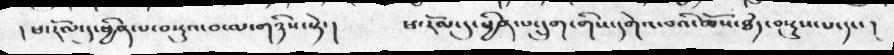། ཕ་རོལ་དུ་ཕྱིན་པ་བསྡུའ་བ་ལ་གཉིས་སྟེ་།  ཕ་རོལ་དུ་ཕྱིན་པ་དྲུག་གི་དགེའ་བའི་ཆོས་ཐཾད་བསྡུས་པ་དང་།
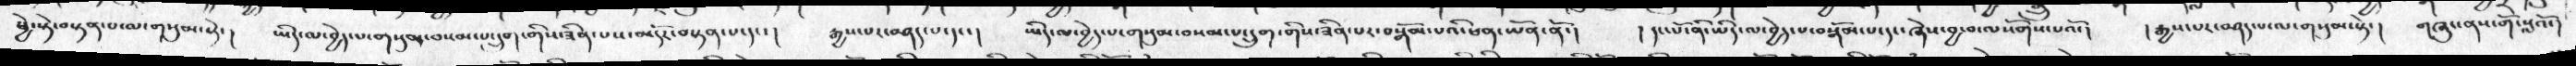ཕྱེ་སྟེ་བསྟན་པ་ལ་གསུམ་སྟེ་།  ཡིད་མ་བྱེད་པ་གསུམ་བསམ་པ་དྲུག་གིས་ཟིན་པས་མདོར་བསྟན་པ་དང་།  རྒྱས་པར་བཤད་པ་དང་།  ཡིད་ལ་བྱེད་པ་གསུམ་བསམ་པ་དྲུག་གིས་ཟིན་པར་བསྒོམ་པའི་ཕན་ཡོན་ནོ་།  ། དང་པོ་ནི་ཡིད་ལ་བྱེད་པ་བསྒོམ་པ་དང་ཞེས་བྱ་བ་ལསོགས་པའོ་།   ། རྒྱས་པར་བཤད་པ་ལ་གསུམ་སྟེ་།  གཞུང་ནས་གོ་སླའོ་།
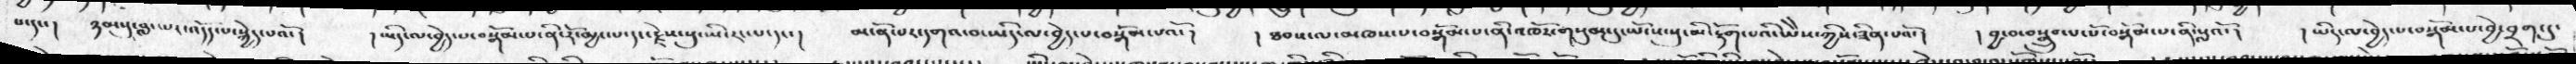པ་དང་།  ཉམ་དུ་བླང་པར་འདོད་པ་སྐྱེད་པའོ་།   ། ཡིད་ལ་བྱེད་པ་བསྒོམ་པ་ནི་རོ་མྱང་པ་དང་རྗེས་སུ་ཡི་རང་པ་དང་།  མངོན་པར་དགའ་བ་ཡིད་ལ་བྱེད་པ་བསྒོམ་པའོ་།  ། ཐབས་ལ་མཁས་པ་བསྒོམ་པ་ནི་འཁོར་གསུམ་དུ་ཡོངས་སུ་མི་རྟོག་པའི་ཡེེས་ཀྱིས་ཟིན་པའོ་།   ། བྱ་བ་བསྒྲུབ་པ་པོ་བསྒོམ་པ་ནི་སླའོ་།   ། ཡིད་ལ་བྱེད་པ་བསྒོམ་པ་བྱེ་བྲག་དུ་
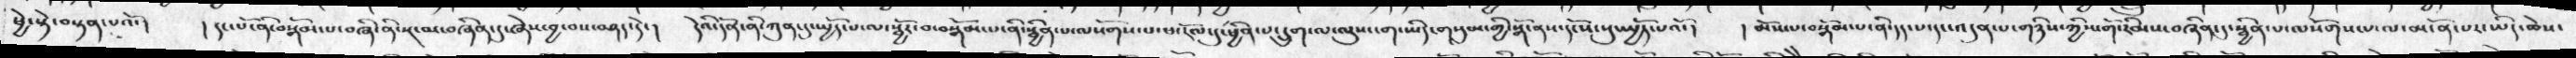ཕྱེ་སྟེ་བསྟན་པའོ་།   ། དང་པོ་ནི་བསྒོམ་པ་བཞི་ནི་སྔ་མ་བཞིན་དུ་ཞེས་བྱ་བས་བཤད་དེ་།   དེའི་དོན་ནི་ཀུན་དུ་སྤྱོད་པ་ལ་སྦྱོར་བ་བསྒོམ་པ་ནི་སྦྱིན་པ་ལསོགས་པ་ཕ་རོལ་དུ་ཕྱིན་པ་དྲུག་ལ་ལུས་ངག་ཡིད་གསུམ་གྱི་སྒོ་ནས་དངོས་སུ་སྤྱོད་པའོ་།  ། མོས་པ་བསྒོམ་པ་ནི་དད་པ་དང་འདུན་པ་གཉིས་ཀྱིས་གོ་རིམས་བཞིན་དུ་སྦྱིན་པ་ལསོགས་པ་ལ་མངོན་པར་ཡིད་ཆེས་
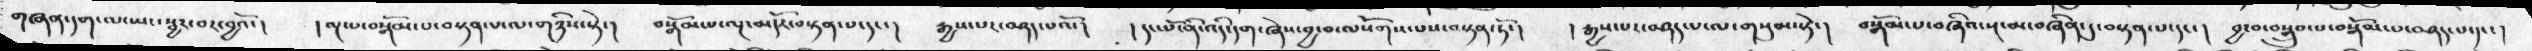གཞན་དག་ལ་ཡང་སྦྱར་བར་བྱའོ་།   ། ལྔ་པ་བསྒོམ་པ་བསྟན་པ་ལ་གཉིས་སྟེ་།  བསྒོམ་པ་ལྔ་མདོར་བསྟན་པ་དང་།  རྒྱས་པར་བཤད་པའོ་།  ། དང་པོ་ནི་འདི་དག་ཞེས་བྱ་བ་ལསོགས་པས་བསྟན་ཏོ་།   ། རྒྱས་པར་བཤད་པ་ལ་གསུམ་སྟེ་།  བསྒོམ་པ་བཞིའ་སྔ་མ་བཞིན་དུ་བསྟན་པ་དང་།  བྱ་བ་བསྒྲུབ་པ་བསྒོམ་པ་བཤད་པ་དང་།
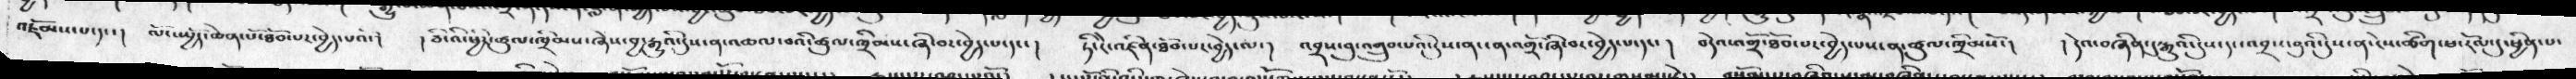འཇོམས་པ་དང་།  ལོངས་སྤྱོད་ཆེན་པོ་ཐོབ་པར་བྱེད་པའི་།  ། ཅིའི་ཕྱིར་ཚུལ་ཁྲིམས་ཞེས་བྱ་རྒྱུའི་དུས་ན་འཆལ་བའི་ཚུལ་ཁྲིམས་ཞི་བར་བྱེད་པ་དང་།  ཏིང་ངེ་འཛིན་ཐོབ་པར་བྱེད་ལ་།  འབྲས་བུ་འགྲུབ་པའི་དུས་ནང་ན་འགྲོ་ཞི་བར་བྱེད་པ་དང་།  བདེའ་འགྲོ་ཐོབ་པར་བྱེད་པས་ན་ཚུལ་ཁྲིམསོ་།  ། དེའ་བཞིན་དུརྒྱུའི་དུས་དང་འབྲས་བུའི་དུས་ན་ངེས་ཚིག་ཕ་རོལ་དུ་ཕྱིན་པ་
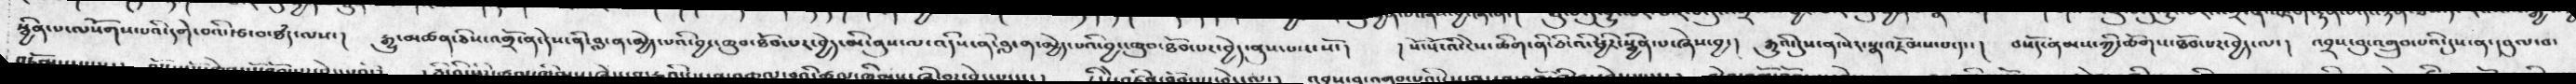སྦྱིན་པ་ལསོགས་པའི་དགེ་བའི་རྩ་བ་ཐཾད་ལས་།  རྒྱུ་མཚན་ཅིས་འགྲོ་ན་དེས་ནི་བླ་ན་མྱེད་པའི་བྱང་ཆུབ་ཐོབ་པར་བྱེད་མི་ནུས་ལ་འདིས་ནི་བླ་ན་མྱེད་པའི་བྱང་ཆུབ་ཐོབ་པར་བྱེད་ནུས་པ་ར་སོ་།  ། སོ་སོ་འི་ངེས་ཚིག་ནི་ཅིའི་ཕྱིར་སྦྱིན་པ་ཞེས་བྱ་།  རྒྱུའི་དུས་ན་སེར་སྣ་འཛོམས་པ་དང་། བསོད་ནམས་ཀྱི་ཚོགས་ཐོབ་པར་བྱེད་ལ་།  འབྲས་བུ་འགྲུབ་པའི་དུས་ན་དབུལ་བ་
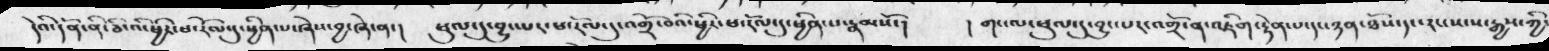དེའི་དོན་ནི་ཅི་འི་ཕྱིར་ཕ་རོལ་དུ་ཕྱིན་པ་ཞེས་བྱ་ཞེ་ན་།  ཕུལ་དུ་བྱུང་པར་ཕ་རོལ་དུ་འགྲོ་བའི་ཕྱིར་ཕ་རོལ་དུ་ཕྱིན་པ་རྣམསོ་།  ། གང་ལ་ཕུལ་དུ་བྱུང་པར་འགྲོ་ན་འཇིག་རྟེན་པ་དང་ཉན་ཐོས་དང་རང་སངས་རྒྱས་ཀྱི་
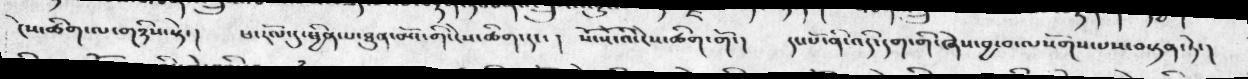ངེས་ཚིག་ལ་གཉིས་སྟེ་།  ཕ་རོལ་དུ་ཕྱིན་པ་ཐུན་མོང་གི་ངེས་ཚིག་དང་།  སོ་སོ་འི་ངེས་ཚིག་གོ་།  དང་པོ་ནི་འདི་དག་གི་ཞེས་བྱ་བ་ལསོགས་པས་བསྟན་ཏེ་།
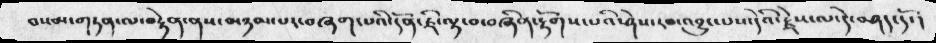བསམ་གཏན་ལ་བརྟེན་ནས་མཉམ་པར་བཞག་པའི་དོན་ཇི་ལྟ་བ་བཞིན་རྟོགས་པའི་ཤེས་རབ་འབྱུང་པས་དེའི་རྗེས་ལ་དེ་བཤད་དོ་།
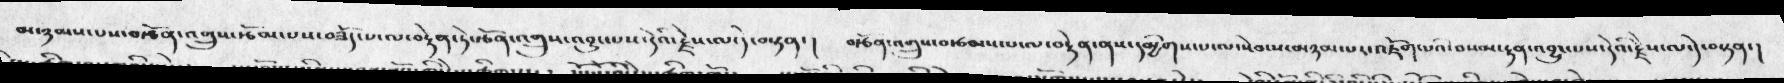མ་ཉམས་པས་བརྩོན་འགྲུས་རྩོམ་པས་བཟོད་པ་ལ་བརྟེན་ཏེ་རྩོན་འགྲུས་འབྱུང་པས་དེའི་རྗེས་ལ་དེ་བསྟན་།   བརྩོན་འགྲུས་བརྩམས་པ་ལ་བརྟེན་ནས་དམྱིགས་པ་ལ་སེམས་མཉམ་པར་འཇོག་པའི་བསམ་རྟན་འབྱུང་པས་དེའི་རྗེས་ལ་དེ་བསྟན་།
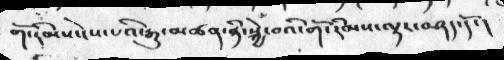གོ་རིམས་ངེས་པའི་རྒྱུ་མཚན་སྐྱེ་བའི་གོ་རིམས་ལྟར་བཤད་དོ་།
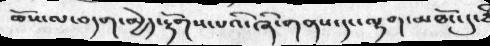ཆོས་ལ་བདག་མྱེད་རྟོགས་པའི་ཞི་གནས་དང་ལྷག་མཐོང་དུ་
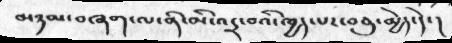མཉམ་བཞག་ལ་ནི་མི་འདྲ་བའི་ཁྱད་པར་བཅུ་མྱེད་དེ་།
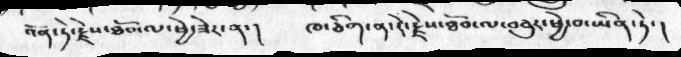འོན་ཏེ་རྗེས་ཐོབ་ལ་ཕྱེ་ཟེར་ན་།  ཁ་ཅིག་ན་རེ་རྗེས་ཐོབ་ལ་བཅུར་ཕྱེ་བ་ཡིན་ཏེ་།
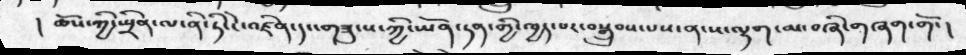། ཆོས་ཀྱི་སྤྲིན་ལ་ནི་ཏི་ངེ་འཛིན་དང་གཟུངས་ཀྱི་ཡོན་ཏན་གྱི་ཁྱད་པར་བསྒྲུབས་པས་ན་ས་ལྷག་མ་བཞི་གཞག་གོ་།
